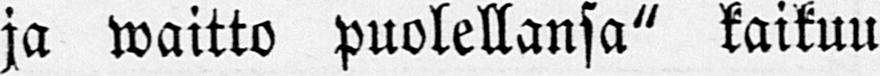ja waitto puolellansa" kaikuu
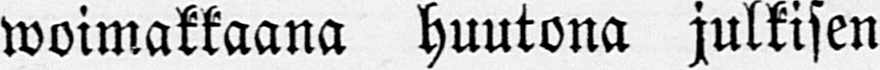woimakkaana huutona julkisen
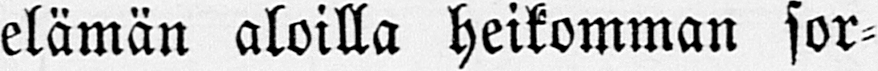elämän aloilla heikomman sor-
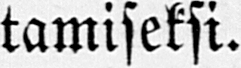tamiseksi.
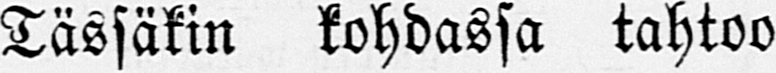Tässäkin kohdassa tahtoo
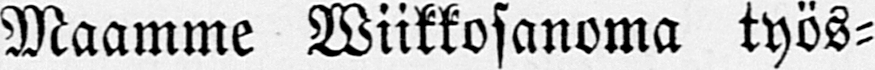Maamme Wiikkosanoma työs-
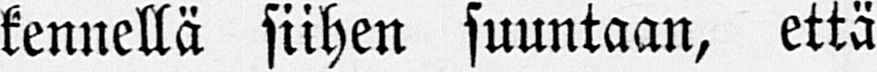kennellä siihen suuntaan, että
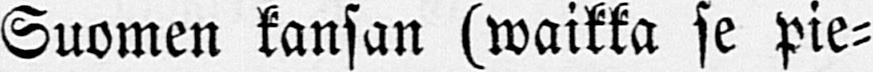Suomen kansan (waikka se pie-
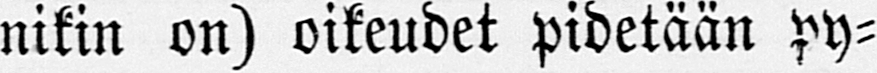nikin on) oikeudet pidetään py-
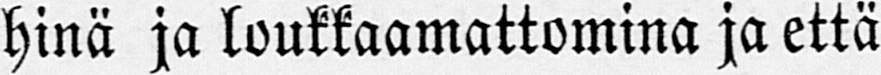hinä ja loukkaamattomina ja että
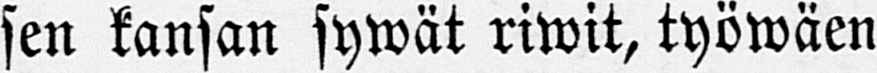sen kansan sywät riwit, työwäen
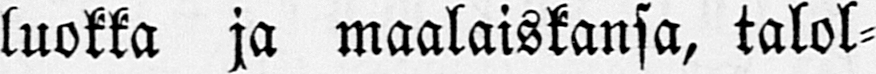luokka ja maalaiskansa, talol-
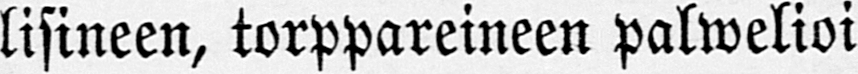lisineen, torppareineen palwelioi-
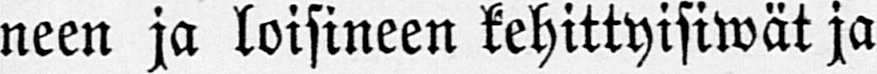neen ja loisineen kehittyisiwät ja
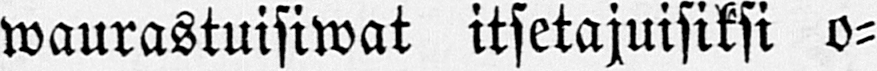waurastuisiwat itsetajuisiksi o-
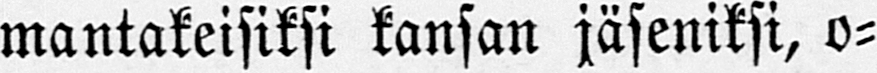mantakeisiksi kansan jäseniksi, o-
